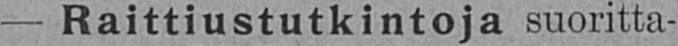— Raittiustutkintoja suoritta-
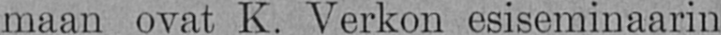maan ovat K. Verkon esiseminaarin
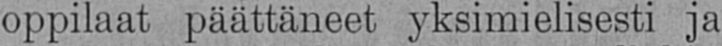oppilaat päättäneet yksimielisesti ja
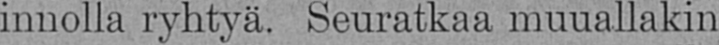innolla ryhtyä. Seuratkaa muuallakin
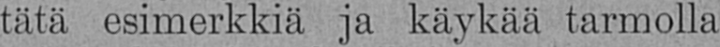tätä esimerkkiä ja käykää tarmolla
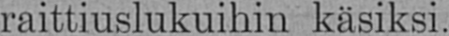raittiuslukuihin käsiksi.
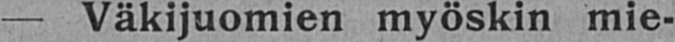— Väkijuomien myöskin mie-
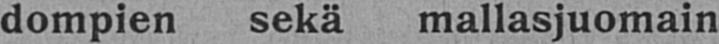dompien sekä mallasjuomain
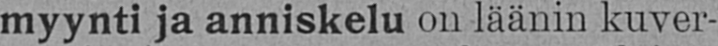myynti ja anniskelu on läänin kuver-
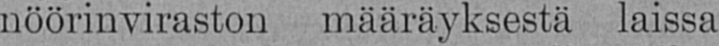nöörinviraston määräyksestä laissa
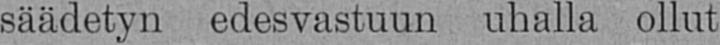säädetyn edesvastuun uhalla ollut
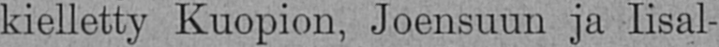kielletty Kuopion, Joensuun ja Iisal-
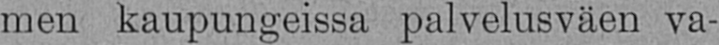men kaupungeissa palvelusväen va-
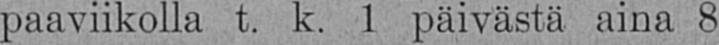paaviikolla t. k. 1 päivästä aina 8
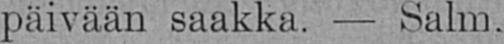päivään saakka. — Salm.
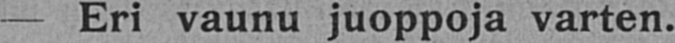— Eri vaunu juoppoja varten.
